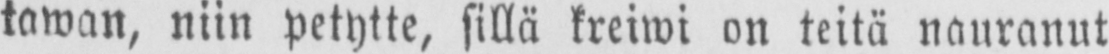tawan, niin petytte, sillä kreiwi on teitä nauranut
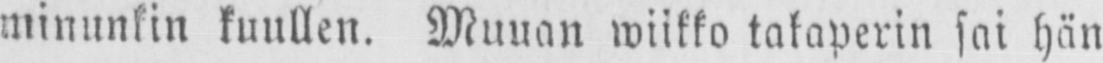minunkin kuullen. Muuan wiikko takaperin sai hän
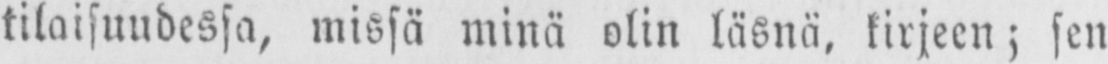tilaisuudessa, missä minä olin läsnä, kirjeen; sen
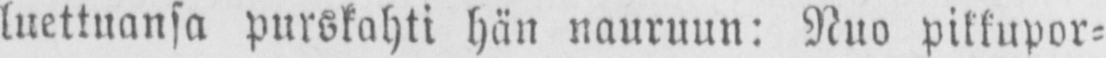luettuansa purskahti hän nauruun: Nuo pikkupor-
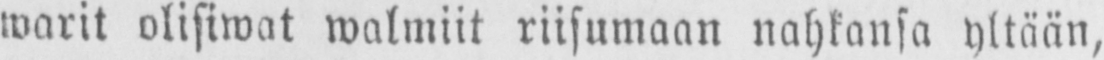warit olisiwat walmiit riisumaan nahkansa yltään,
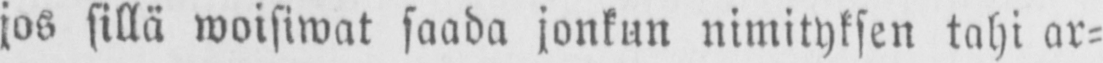jos sillä woisiwat saada jonkun nimityksen tahi ar-
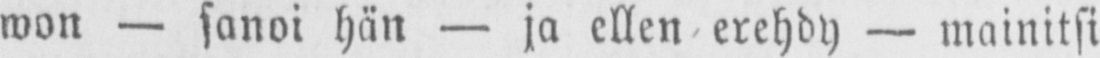won — sanoi hän — ja ellen erehdy — mainitsi
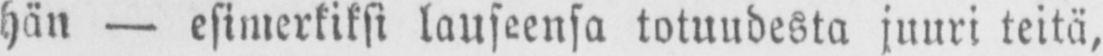hän — esimerkiksi lauseensa totuudesta juuri teitä,
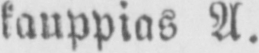kauppias A.
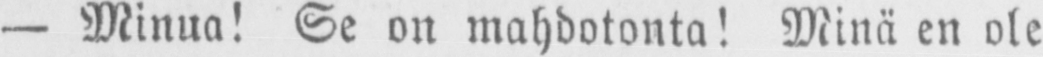— Minua! Se on mahdotonta! Minä en ole
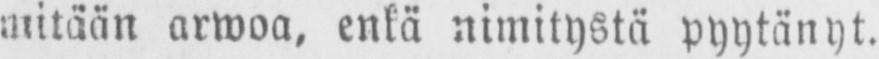mitään arwoa, enkä nimitystä pyytänyt.
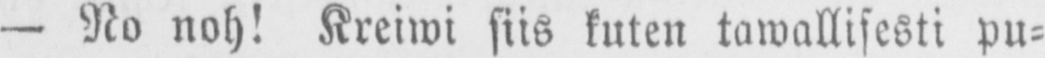— No noh! Kreiwi siis kuten tawallisesti pu-
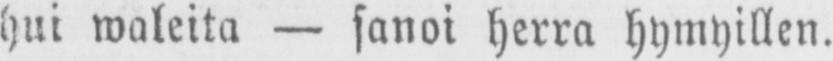hui waleita — sanoi herra hymyillen.
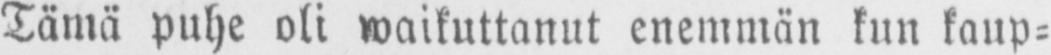Tämä puhe oli waikuttanut enemmän kun kaup-
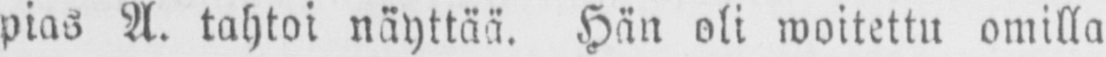pias A. tahtoi näyttää. Hän oli woitettu omilla
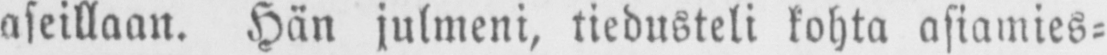aseillaan. Hän julmeni, tiedusteli kohta asiamies-
